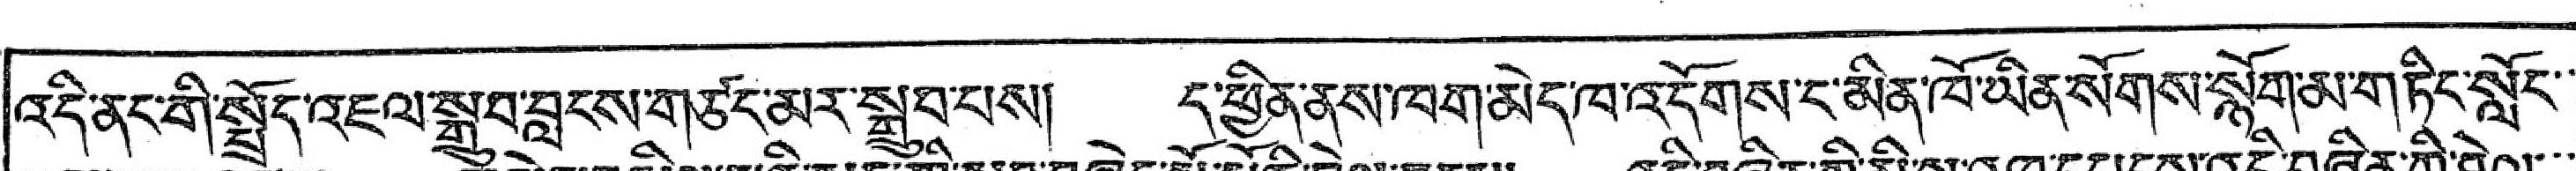འདི་ནང་གི་སྤྲོད་འཇལ་སྒྲུབ་་བླངས་གཙང་མར་སྒྲུབ་པས། ད་ཕྱིན་ནས་ཁག་མེད་ཁ་འདོགས་ང་མིན་ཁོ་ཡིན་སོགས་སྙོག་མ་གཏིང་སློང་་
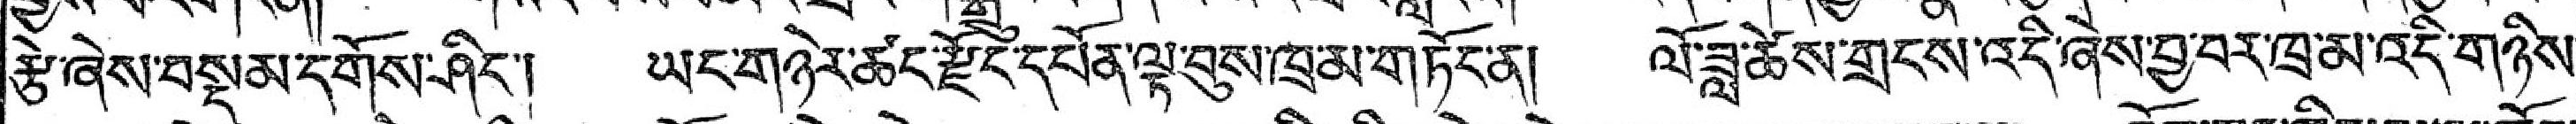རྩེ་ཞེས་བསྡམ་དགོས་ཤིང་། ཡང་གཉེར་ཚང་རྫོང་དཔོན་ལྟ་བུས་ཁྲ་མ་གཏོང་ན། ལོ་ཟླ་ཚེས་གྲངས་འདི་ཞེས་བྱ་བར་ཁྲ་མ་འདི་གཉིས་
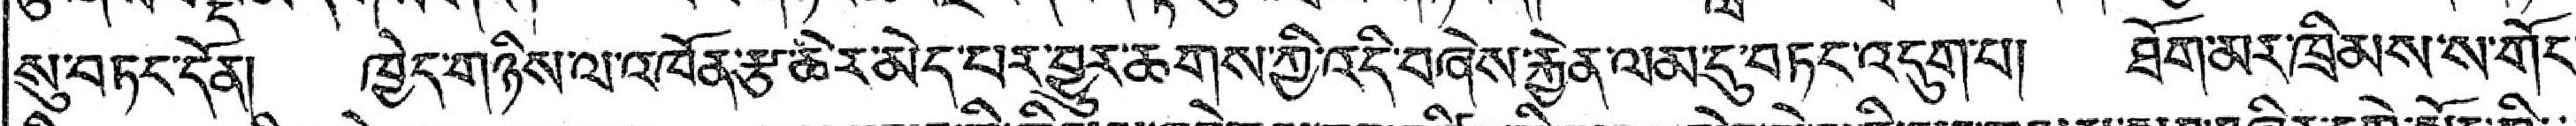སུ་བཏང་དོན། ཁྱེད་གཉིས་ལ་འཁོན་རྩ་ཆེར་མེད་པར་བྱུར་ཆགས་ཀྱི་འདི་བཞེས་རྐྱེན་ལམ་དུ་བཏང་འདུག་པ། ཐོག་མར་ཁྲིམས་ས་གོང་
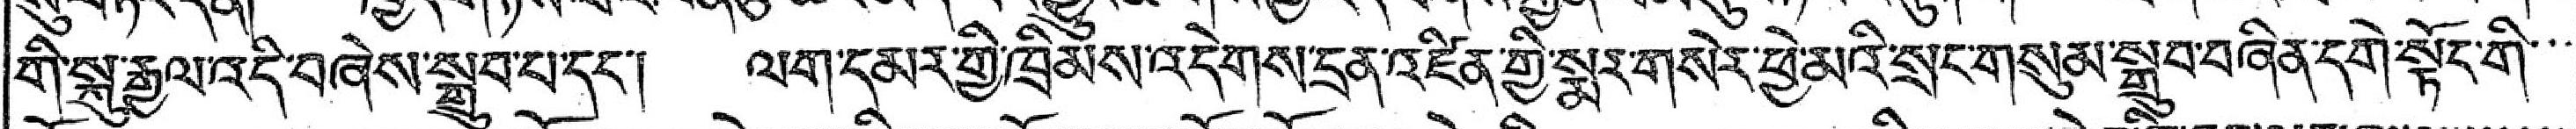གི་སྐུ་རྒྱལ་འདི་བཞེས་སྒྲུབ་པ་དང་། ལག་དམར་གྱི་ཁྲིམས་འདེགས་དྲན་འཛིན་གྱི་སྨར་གསེར་ཕྱེ་མའི་སྲང་གསུམ་སྒྲུབ་བཞིན་དགེ་སྟོང་གི་་་
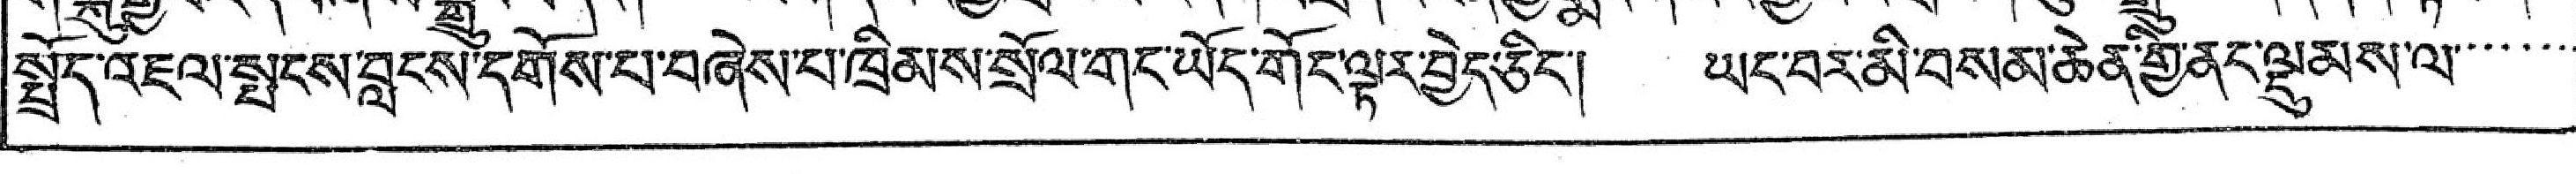སྤྲོད་འཇུལ་སྤངས་བླངས་དགོས་པ་བཞེས་པ་ཁྲིམས་སྲོལ་གང་ཡོད་གོང་ལྟར་བྱེད་ཅིང་། ཡང་བར་མི་བསམ་ཆེན་གྱི་ནང་ལྡུམས་ལ་་་་་་་
